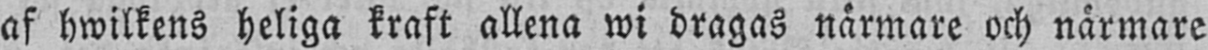af hwilkens heliga kraft allena wi dragas närmare och närmare
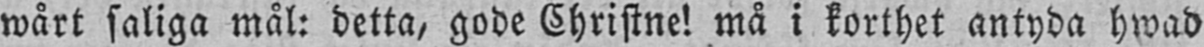wårt saliga mål: detta, gode Christne! må i korthet antyda hwad
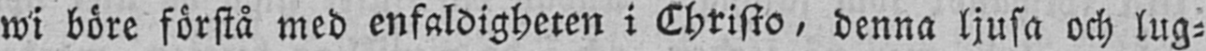wi böre förstå med enfaldigheten i Christo, denna ljusa och lug-
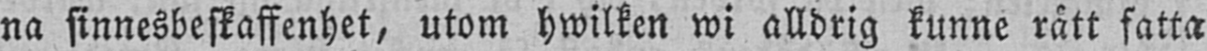na sinnesbeskaffenhet, utom hwilken wi alldrig kunne rätt fatta
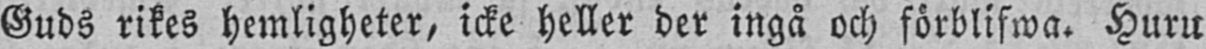Guds rikes hemligheter, icke heller der ingå och förblifwa. Huru
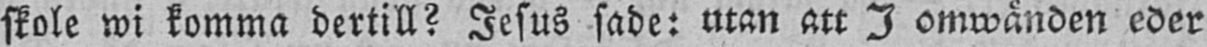skole wi komma dertill? Jesus sade: utan att I omwänden eder
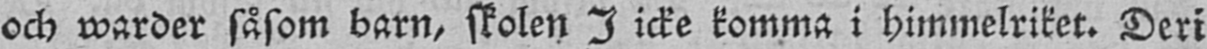och warder såsom barn, skolen I icke komma i himmelriket. Deri
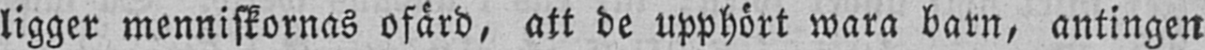ligger menniskornas ofärd, att de upphört wara barn, antingen
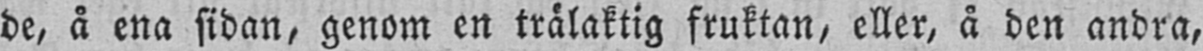de, å ena sidan, genom en trälaktig fruktan, eller, å den andra,
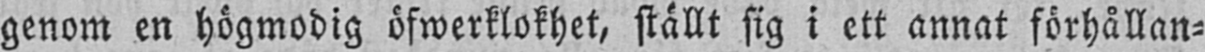genom en högmodig öfwerklokhet, ställt sig i ett annat förhållan-
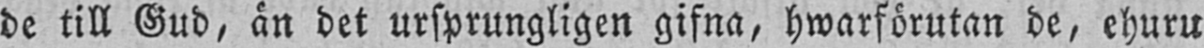de till Gud, än det ursprungligen gifna, hwarförutan de, ehuru
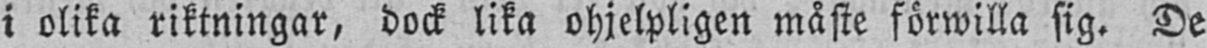i olika riktningar, dock lika ohjelpligen måste förwilla sig. De
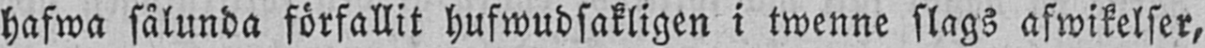hafwa sålunda förfallit hufwudsakligen i twenne slags afwikelser,
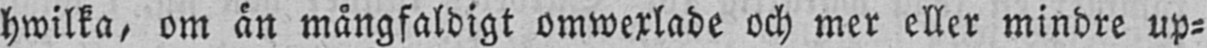hwilka, om än mångfaldigt omwexlade och mer eller mindre up-
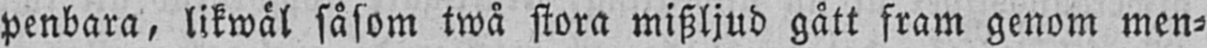penbara, likwäl såsom twå stora miszljud gått fram genom men-
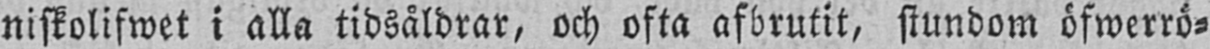niskolifwet i alla tidsåldrar, och ofta afbrutit, stundom öfwerrö-
